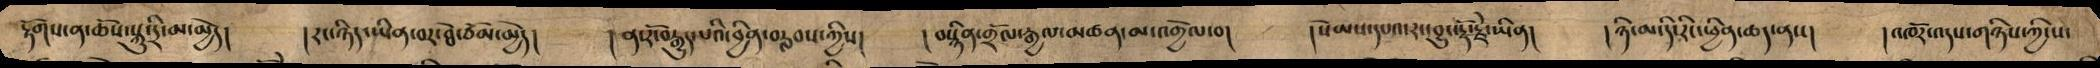རྟོགས་ན་ཆོས་སྐུ་དྲི་མ་མྱེད། །རང་ཉིད་ཡིན་བར་ཐེ་ཙོམ་མྱེད། །ན་རོ་བརྒྱུད་པའི་བྱིན་བརླབས་ཀྱིས། །བསྙིན་གྲོལ་རྒྱལ་མཚན་མ་འགྱེལ་བ། །སེམས་དཔའ་རང་བྱུང་རྡོ་རྗེ་ཡིན། །ཉི་མ་དི་རིང་ཕྱིན་ཆད་ནས། །འཁོར་འདས་གཉིས་ཀྱི་ས་
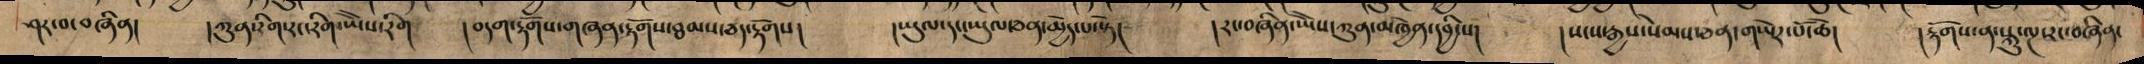ཤར་བ་བཞིན། །ཀུན་རིག་རང་རིག་ཡཻས་རིག །བདག་རྟོགས་གཞན་རྟོགས་ཐམས་ཅད་རྟོགས། །ཡུལ་དང་ཡུལ་ཅན་མྱེད་པ་སྟེ། །རང་བཞིན་ཡཻས་ཀུན་མཁྱེན་དབྱིངས། །སངས་རྒྱས་སེམས་ཅན་གཡེར་པོ་ཆེ། །རྟོགས་ན་སྐུ་ལྔ་རང་བཞིན་
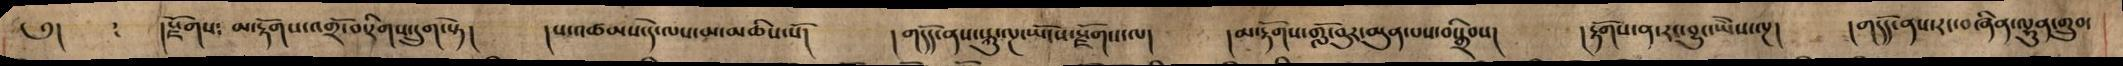༅། །སྫོགས༴ མ་རྟོགས་འགྲོ་བ་རིགས་དྲུག་སྟེ། །ས་འཚམས་དེ་ལས་མ་མཆིས་སོ། །གདོད་ནས་སྐུ་ལྔ་ཡོངས་སྫོགས་ལ། །མ་རྟོགས་གློ་བུར་མུན་པས་བསྒྲིབས། །རྟོགས་ན་རང་བྱུང་ཡཻས་ལྔ། །གདོད་ནས་རང་བཞིན་ལྷུན་གྲུབ་
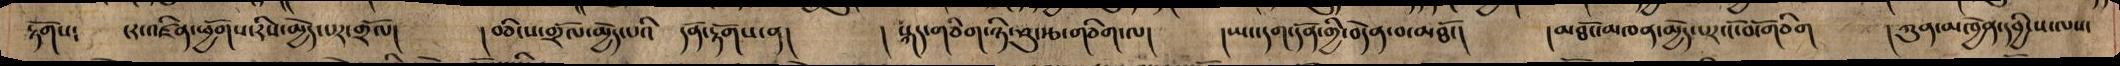རྟོགས༴ ངར་འཛིན་ཕྱོགས་རིས་མྱེད་པར་གྲོལ། །བཅིངས་གྲོལ་མྱེད་པའི དོན་རྟོགས་ན། །སྐད་གཅིག་ཉི་ཤུ་རྩ་གཅིག་ལ། །ཡང་དག་དོན་གྱི་བདེན་བ་མཐོང། །མཐོང་མཁན་མྱེད་པར་ངོ་བོ་གཅིག །ཀུན་མཁྱེན་དབྱིངས་ལས་
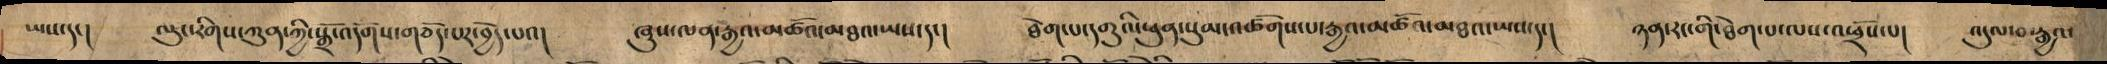ཡས་དང། ལུང་རིགས་ཀུན་ཀྱི་སྒྲོ་འདོགས་གཅོད་པར་བྱེད་པའ། ཞུས་ལན་རྒྱའ་མཚོའ་མཐའ་ཡས་དང། ཐེག་པ་དགུའི་ཕུན་སུམ་འཚོགས་པ་རྒྱའ་མཚོའ་མཐའ་ཡས་དང། ཉན་རང་གི་ཐེག་པ་ལས་འཕྲོས་པ། འདུལ་བ་རྒྱའ་
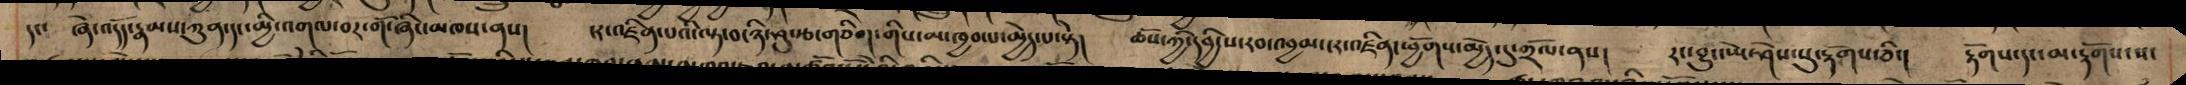དང་ ཞེ་འདོད་རྣམས་ཀུན་དང་མྱི་འགལ་བར་གོ་ཞིང་མཁས་ནས། ངར་འཛིན་པའི་ལྟ་བ་ཉི་ཤུ་རྩ་གཅིག་གིས་མ་ཁྱབ་པ་མྱེད་པ་སྟེ། ཆོས་ཀྱི་དབྱིངས་རབ་འབྱམ་ངར་འཛིན་ཕྱོགས་མྱེད་དུ་གྲོལ་ནས། རང་བྱུང་ཡེ་ཤེས་སུ་རྟོགས་ཅིང། རྟོགས་དང་མ་རྟོགས་ས་
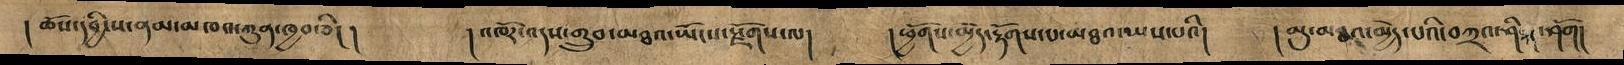།ཆོས་དབྱིངས་ནམ་མཁའ་ཀུན་ཁྱབ་ཅིང། །འཁཽར་འདས་གྲུབ་མཐའ་ཡོངས་སྫོགས་ལ། །ཕྱོགས་མྱེད་རྟོགས་པ་མཐའ་ཡས་པའི། །མུ་མཐའ་མྱེད་པའི་བཀྲའ་ཤིས་ཤོག།
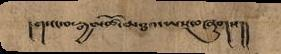།གསང་བ་རྒྱ་མཚོ་མཐའ་ཡས་བཞུགས།།
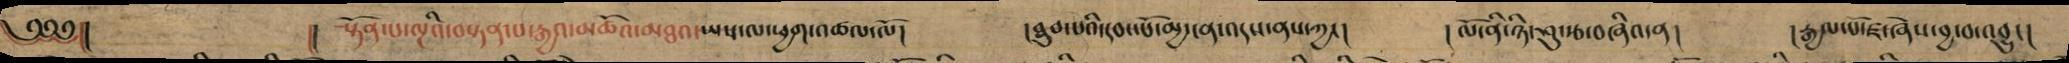༄༅༅།། །། སྟོན་པ་ལྔའི་བསྟན་པ་རྒྱའ་མཚོའ་མཐའ་ཡས་ལ་ཕྱག་འཚལ་ལོ། །ཐུབ་པའི་དབང་པོ་འདས་ནས་ཀྱང། །ལོ་ནི་ཉི་ཤུ་རྩ་བཞིའ་ན། །རྒྱལ་པོ་ཛ་ཞེས་བྱ་བ་འབྱུང།
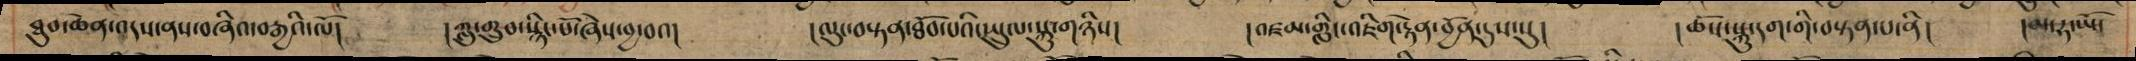ཐུབ་ཆེན་འདས་ནས་བཞིའ་བརྒྱའི་ལོ། །ཀླུ་གྲུབ་སྙིང་པོ་ཞེས་བྱ་བའ། །ལུང་བསྟན་ཐོབ་པའི་སྤྲུལ་སྐུ་གཉིས། །འཛམ་གླིང་འཇིག་རྟེན་བྱོན་དུས་སུ། །ཆོས་སྐུ་དག་གི་བསྟན་པ་ནི། །མ་ཧ་ཡོ་
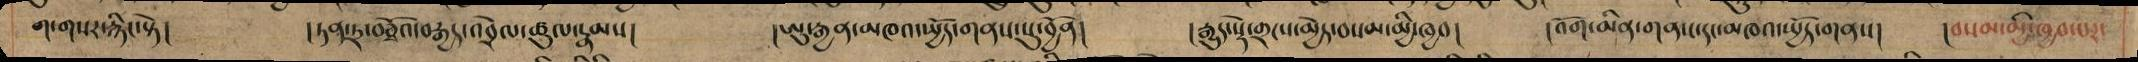ག་གསར་རྙིང་སྟེ། །ཏན་ཏྲ་བཅྭོའ་བརྒྱས་འབྲེལ་ཚུལ་རྣམས། །ཨུ་རྒྱན་མཁའ་སྤྱོད་གནས་སུ་བྱོན། །རྒྱུད་སྡེ་གྲངས་མྱེད་བསམ་མྱི་ཁྱབ། །འོག་མིན་གནས་དང་མཁའ་སྤྱོད་གནས། །བསམ་མྱི་ཁྱབ་པར་
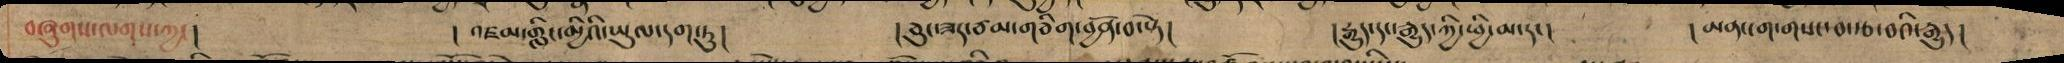བཞུགས་ལགས་ཀྱང། །འཛམ་གླིང་མྱིའི་ཡུལ་དག་ཏུ། །ཅུང་ཟད་ཙམ་གཅིག་བྱོན་བ་སྟེ། །རྒྱུད་དང་རྒྱུད་ཀྱི་ཕྱི་མ་དང། །མན་ངག་གསང་བ་རྩ་བའི་རྒྱུད།
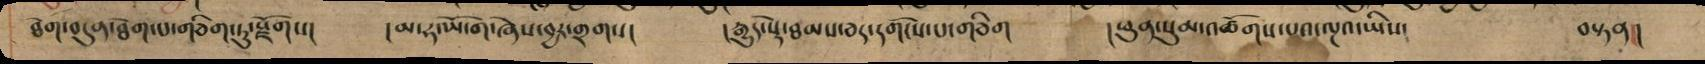ཐེག་བདུན་ཐེག་པ་གཅིག་ཏུ་སྫོགས། །མ་ཧ་ཡོ་ག་ཞེས་བྱར་གྲགས། །རྒྱུད་སྡེ་ཐམས་ཅད་དགོངས་པ་གཅིག །ཕུན་སུམ་འཚོགས་པའ་ལྔའ་ཡིས། བསྟན།།
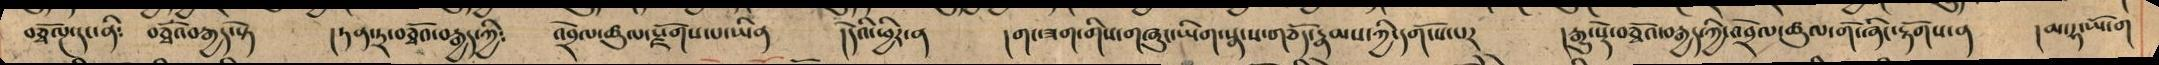བཅྭོ་ལྔ་དང་ནི༴ བཅྭོའ་བརྒྱད་སྟེ །ཏན་ཏྲ་བཅྭོའ་བརྒྱད་ཀྱི༴ འབྲེལ་ཚུལ་སྫོགས་པ་ཡིན །དེའི་ཕྱིར་ན །གང་ཟག་གིས་གཞུང་ཡིག་སྣ་ས་གཅོད་རྣམས་ཀྱི་དགོངས་པར །རྒྱུད་སྡེ་བཅྭོའ་བརྒྱད་ཀྱི་འབྲེལ་ཚུལ་གོ་ཞིང་རྟོགས་ན །མ་ཧ་ཡོ་ག
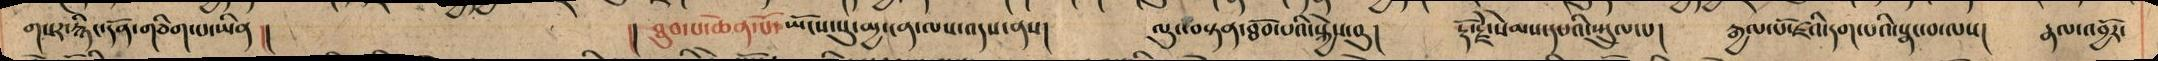གསར་རྙིང་དོན་གཅིག་པ་ཡིན།། །།ཐུབ་པ་ཆེན་པོ་ཡོངས་སུ་མྱ་ངན་ལས་འདས་ནས། ལུང་བསྟན་ཐོབ་པའི་སྐྱེད་བུ། རྡོ་རྗེ་སེམས་དཔའི་སྤྲུལ་པ། རྒྱལ་པོ་ཛའི་དག་པའི་སྣང་བ་ལས། རྣལ་འབྱོར་
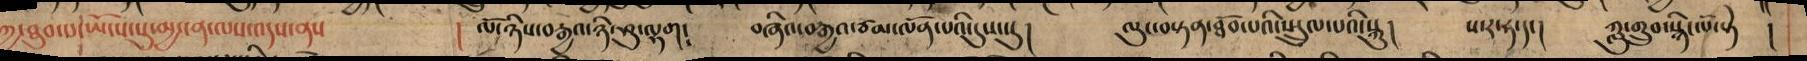ཀྱ་ཐུབ་པ་ཡོངས་སུ་མྱ་ངན་ལས་འདས་ནས ། ལོ་ཉིས་བརྒྱའ་ཉི་ཤུ་ལྷག། བཞིའ་བརྒྱའ་ཙམ་ལོན་པའི་དུས་སུ། ལུང་བསྟན་ཐོབ་པའི་སྤྲུལ་པའི་སྐུ། ས་ར་ཧ་དང། ཀླུ་གྲུབ་སྙིང་པོ་སྟེ །
